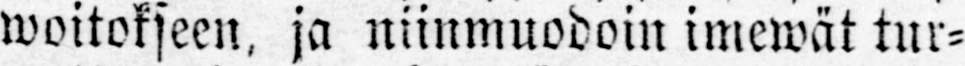woitokseen, ja niinmuodoin imewät tur-
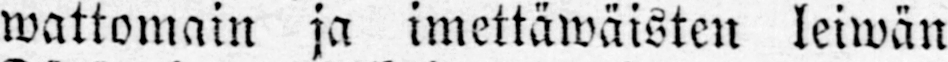wattomain ja imettäwäisten leiwän
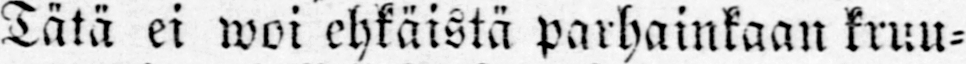Tätä ei woi ehkäistä parhainkaan kruu-
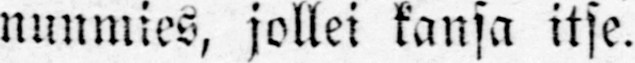nunmies, jollei kansa itse.
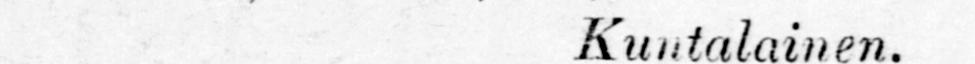Kuntalainen.
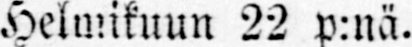Helmikuun 22 p:nä.
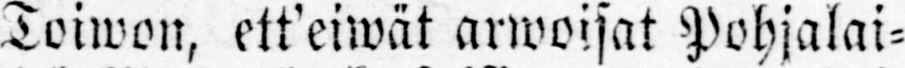Toiwon, ett'eiwät arwoisat Pohjalai-
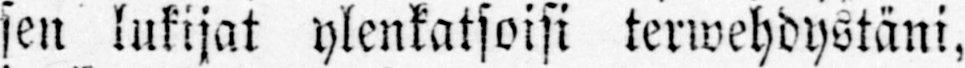sen lukijat ylenkatsoisi terwehdystäni,
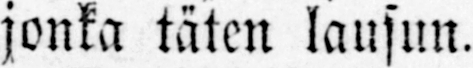jonka täten lausun.
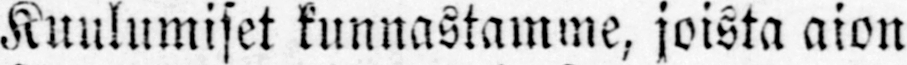Kuulumiset kunnastamme, joista aion
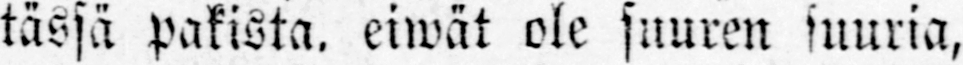tässä pakista, eiwät ole suuren suuria,
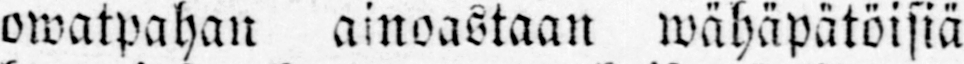owatpahan ainoastaan wähäpätöisiä
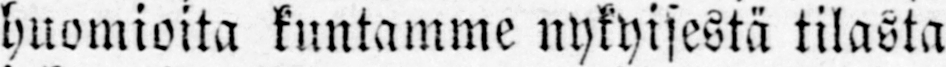huomioita kuntamme nykyisestä tilasta
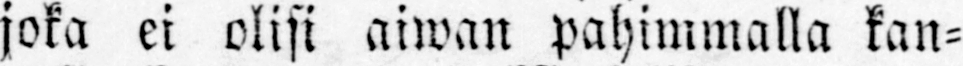joka ei olisi aiwan pahimmalla kan-
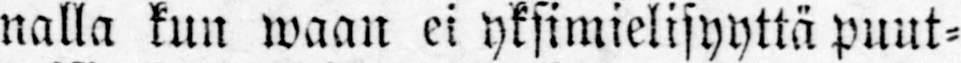nalla kun waan ei yksimielisyyttä puut-
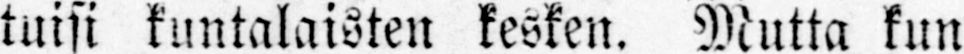tuisi kuntalaisten kesken. Mutta kun
